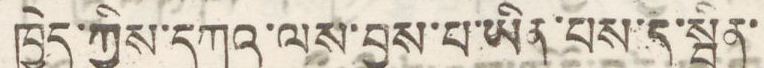ཁྱེད་ཀྱིས་དཀའ་ལས་བྱས་པ་ཡིན་པས་ད་སྦྱིན་
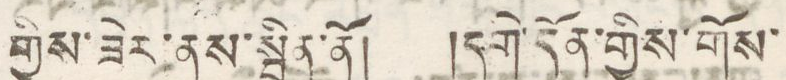གྱིས་ཟེར་ནས་སྦྱིན་ནོ། །དགེ་དོན་གྱིས་གོས་
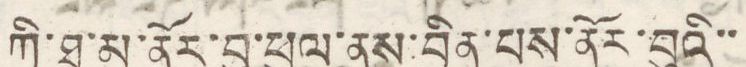ཀྱི་ཐ་མ་ནོར་བུ་ཕུལ་ནས་བྱིན་པས་ནོར་བུའི་་
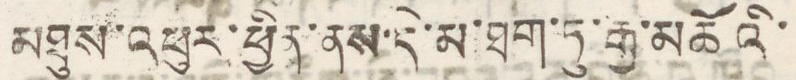མཐུས་འཕུར་ཕྱིན་ནས་དེ་མ་ཐག་ཏུ་རྒྱ་མཚོའི་
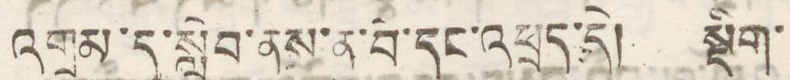འགྲམ་དུ་སླེབ་ནས་ནུ་བ་དང་འཕྲད་དེ། སྡིག་
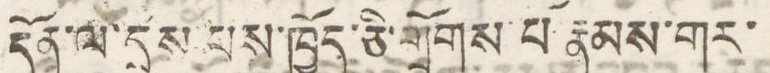དོན་ལ་དྲས་པས་ཁྱོད་ཅི་གྲོགས་པོ རྣམས་གར་
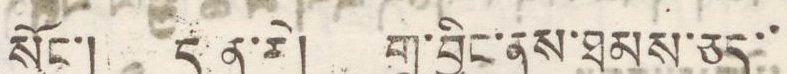སོང་། ད་ན་རེ། གྲུ་བྱིང་ནས་ཐམས་ཅད་་
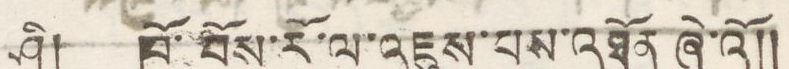ཤི། ཁོ་བོས་རོ་ལ་འཇུས་པས་འཐོན་ ཞེ་འོ།།
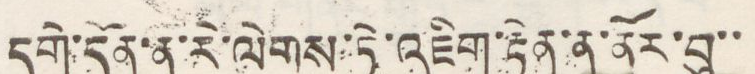དགེ་དོན་ན་རེ་ལེགས་ཏེ་འཇིག་རྟེན་ན་ནོར་བུ་་
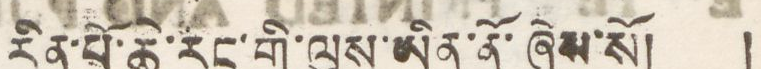རིན་པོ་ཆེ་རང་གི་ལུས་ཡིན་ནོ་ཞེས་སོ། །
